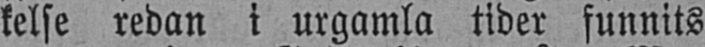kelse redan i urgamla tider funnits
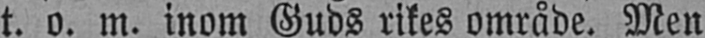t. o. m. inom Guds rikes område. Men
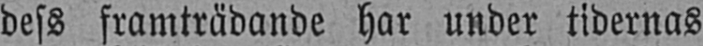dess framträdande har under tidernas
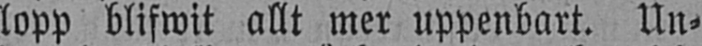lopp blifwit allt mer uppenbart. Un-
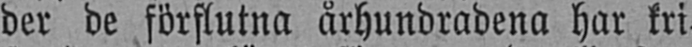der de förflutna århundradena har kri-
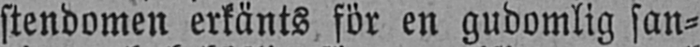stendomen erkänts för en gudomlig san-
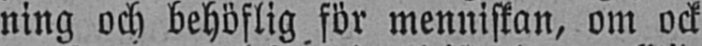ning och behöflig för menniskan, om ock
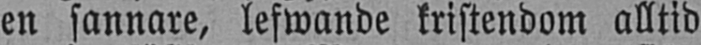en sannare, lefwande kristendom alltid
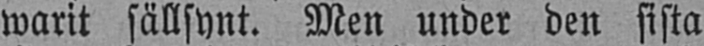warit sällsynt. Men under den sista
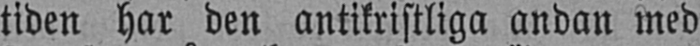tiden har den antikristliga andan med
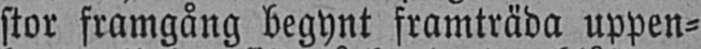stor framgång begynt framträda uppen-
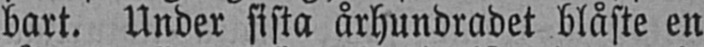bart. Under sista århundradet blåste en
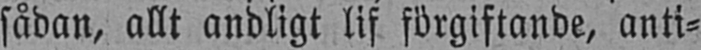sådan, allt andligt lif förgiftande, anti-
